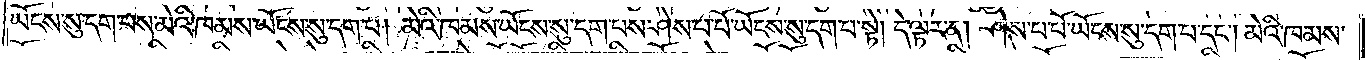ཡོངས་སུ་དག་པས་མེའི་ཁམས་ཡོངས་སུ་དག་པ། མེའི་ཁམས་ཡོངས་སུ་དག་པས་ཤེས་པ་པོ་ཡོངས་སུ་དག་པ་སྟེ། དེ་ལྟར་ན། ཤེས་པ་པོ་ཡོངས་སུ་དག་པ་དང༌། མེའི་ཁམས་
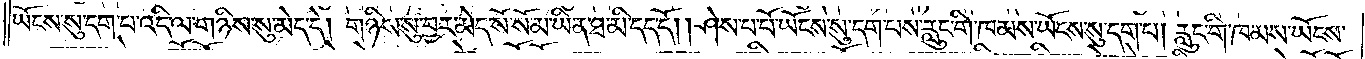ཡོངས་སུ་དག་པ་འདི་ལ་གཉིས་སུ་མེད་དེ། གཉིས་སུ་བྱར་མེད་སོ་སོ་མ་ཡིན་ཐ་མི་དད་དེ། །ཤེས་པ་པོ་ཡོངས་སུ་དག་པས་རླུང་གི་ཁམས་ཡོངས་སུ་དག་པ། རླུང་གི་ཁམས་ཡོངས་
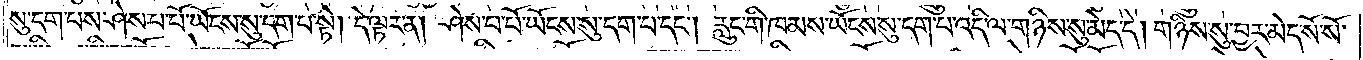སུ་དག་པས་ཤེས་པ་པོ་ཡོངས་སུ་དག་པ་སྟེ། དེ་ལྟར་ན། ཤེས་པ་པོ་ཡོངས་སུ་དག་པ་དང༌། རླུང་གི་ཁམས་ཡོངས་སུ་དག་པ་འདི་ལ་གཉིས་སུ་མེད་དེ། གཉིས་སུ་བྱར་མེད་སོ་སོ་
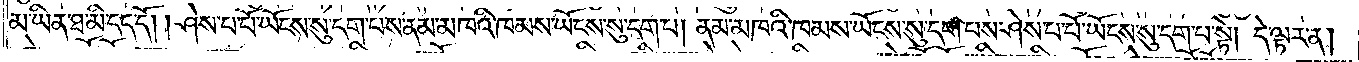མ་ཡིན་ཐ་མི་དད་དོ། །ཤེས་པ་པོ་ཡོངས་སུ་དག་པས་ནམ་མཁའི་ཁམས་ཡོངས་སུ་དག་པ། ནམ་མཁའི་ཁམས་ཡོངས་སུ་དག་པས་ཤེས་པ་པོ་ཡོངས་སུ་དག་པ་སྟེ། དེ་ལྟར་ན།
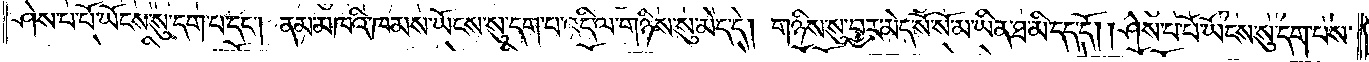ཤེས་པ་པོ་ཡོངས་སུ་དག་པ་དང༌། ནམ་མཁའི་ཁམས་ཡོངས་སུ་དག་པ་འདི་ལ་གཉིས་སུ་མེད་དེ། གཉིས་སུ་བྱར་མེད་སོ་སོ་མ་ཡིན་ཐ་མི་དད་དོ། །ཤེས་པ་པོ་ཡོངས་སུ་དག་པས་
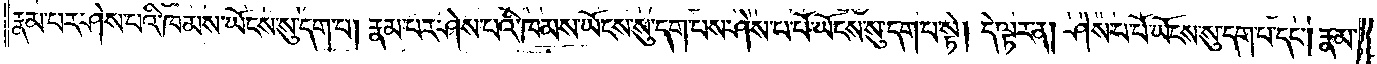རྣམ་པར་ཤེས་པའི་ཁམས་ཡོངས་སུ་དག་པ། རྣམ་པས་ཤེས་པའི་ཁམས་ཡོངས་སུ་དག་པས་ཤེས་པ་པོ་ཡོངས་སུ་དག་པ་སྟེ། དེ་ལྟར་ན། ཤེས་པ་པོ་ཡོངས་སུ་དག་པ་དང༌། རྣམ་
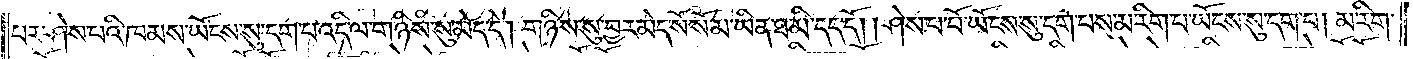པར་ཤེས་པའི་ཁམས་ཡོངས་སུ་དག་པ་འདི་ལ་གཉིས་སུ་མེད་དེ། གཉིས་སུ་བྱར་མེད་སོ་སོ་མ་ཡིན་ཐ་མི་དད་དོ། །ཤེས་པ་པོ་ཡོངས་སུ་དག་པས་མ་རིག་པ་ཡོངས་སུ་དག་པ། མ་རིག་
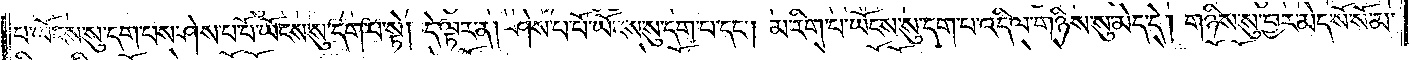པ་ཡོངས་སུ་དག་པས་ཤེས་པ་པོ་ཡོངས་སུ་དག་པ་སྟེ། དེ་ལྟར་ན། ཤེས་པ་པོ་ཡོངས་སུ་དག་པ་དང༌། མ་རིག་པ་ཡོངས་སུ་དག་པ་འདི་ལ་གཉིས་སུ་མེད་དེ། གཉིས་སུ་བྱར་མེད་སོ་སོ་མ་
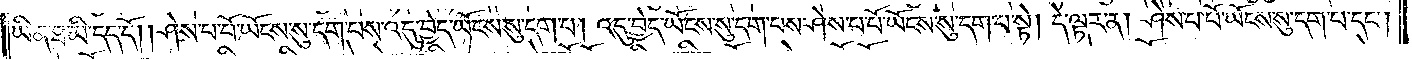ཡིན་ཐ་མི་དད་དོ། །ཤེས་པ་པོ་ཡོངས་སུ་དག་པས་འདུ་བྱེད་ཡོངས་སུ་དག་པ། འདུ་བྱེད་ཡོངས་སུ་དག་པས་ཤེས་པ་པོ་ཡོངས་སུ་དག་པ་སྟེ། དེ་ལྟར་ན། ཤེས་པ་པོ་ཡོངས་སུ་དག་པ་དང༌།
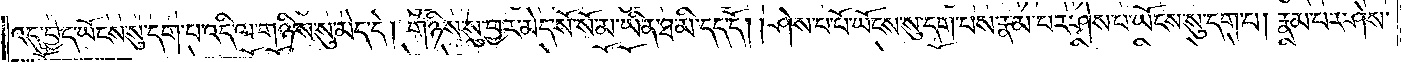འདུ་བྱེད་ཡོངས་སུ་དག་པ་འདི་ལ་གཉིས་སུ་མེད་དེ། གཉིས་སུ་བྱར་མེད་སོ་སོ་མ་ཡིན་ཐ་མི་དད་དོ། །ཤེས་པ་པོ་ཡོངས་སུ་དག་པས་རྣམ་པར་ཤེས་པ་ཡོངས་སུ་དག་པ། རྣམ་པར་ཤེས་
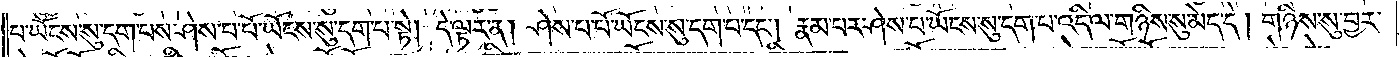པ་ཡོངས་སུ་དག་པས་ཤེས་པ་པོ་ཡོངས་སུ་དག་པ་སྟེ། དེ་ལྟར་ན། ཤེས་པ་པོ་ཡོངས་སུ་དག་པ་དང༌། རྣམ་པར་ཤེས་པ་ཡོངས་སུ་དག་པ་འདི་ལ་གཉིས་སུ་མེད་དེ། གཉིས་སུ་བྱར་
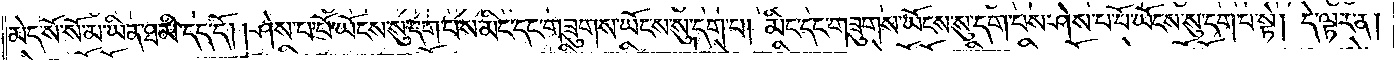མེད་སོ་སོ་མ་ཡིན་ཐ་མི་དད་དོ། །ཤེས་པ་པོ་ཡོངས་སུ་དག་པས་མིང་དང་གཟུགས་ཡོངས་སུ་དག་པ། མིང་དང་གཟུགས་ཡོངས་སུ་དག་པས་ཤེས་པ་པོ་ཡོངས་སུ་དག་པ་སྟེ། དེ་ལྟར་ན།
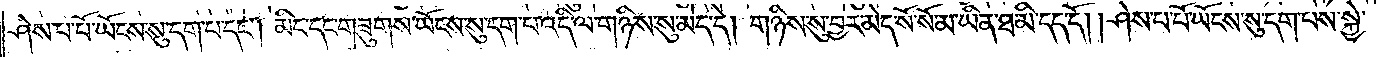ཤེས་པ་པོ་ཡོངས་སུ་དག་པ་དང༌། མིང་དང་གཟུགས་ཡོངས་སུ་དག་པ་འདི་ལ་གཉིས་སུ་མེད་དེ། གཉིས་སུ་བྱར་མེད་སོ་སོ་མ་ཡིན་ཐ་མི་དད་དོ། །ཤེས་པ་པོ་ཡོངས་སུ་དག་པས་སྐྱེ་
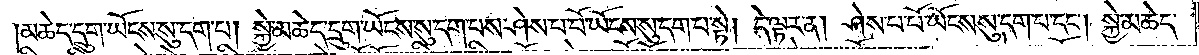མཆེད་དྲུག་ཡོངས་སུ་དག་པ། སྐྱེ་མཆེད་དྲུག་ཡོངས་སུ་དག་པས་ཤེས་པ་པོ་ཡོངས་སུ་དག་པ་སྟེ། དེ་ལྟར་ན། ཤེས་པ་པོ་ཡོངས་སུ་དག་པ་དང༌། སྐྱེ་མཆེད་
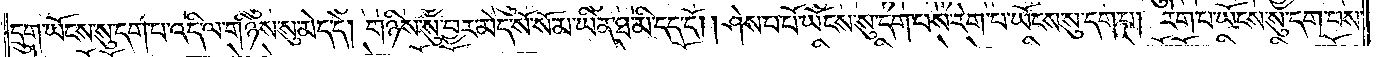དྲུག་ཡོངས་སུ་དག་པ་འདི་ལ་གཉིས་སུ་མེད་དེ། གཉིས་སུ་བྱར་མེད་སོ་སོ་མ་ཡིན་ཐ་མི་དད་དོ། །ཤེས་པ་པོ་ཡོངས་སུ་དག་པས་རེག་པ་ཡོངས་སུ་དག་པ། རེག་པ་ཡོངས་སུ་དག་པས་
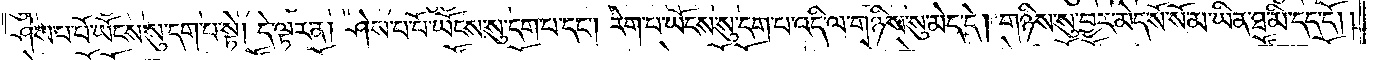ཤེས་པ་པོ་ཡོངས་སུ་དག་པ་སྟེ། དེ་ལྟར་ན། ཤེས་པ་པོ་ཡོངས་སུ་དག་པ་དང༌། རེག་པ་ཡོངས་སུ་དག་པ་འདི་ལ་གཉིས་སུ་མེད་དེ། གཉིས་སུ་བྱར་མེད་སོ་སོ་མ་ཡིན་ཐ་མི་དད་དོ། །
